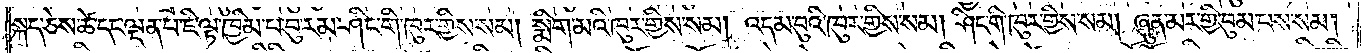སྐད་ཅེས་ཚེ་དང་ལྡན་པ་ཇི་ལྟ་ཁྱིམ་པ་བུ་རམ་ཤིང་གི་ཁུར་གྱིས་སམ། སྨིག་མའི་ཁུར་གྱིས་སམ། འདམ་བུའི་ཁུར་གྱིས་སམ། ཤིང་གི་ཁུར་གྱིས་སམ། ཞུན་མར་གྱི་བུམ་པས་སམ།
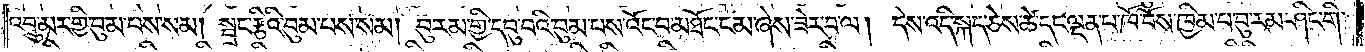འབྲུ་མར་གྱི་བུམ་པས་སམ། སྦྲང་རྩིའི་བམ་པས་སམ། བུ་རམ་གྱི་དབུ་བའི་བུམ་པས་འོང་བ་མཐོང་ངམ་ཞེས་ཟེར་བ་ལ། དེས་འདི་སྐད་ཅེས་ཚེ་དང་ལྡན་པ་ཁོ་བོས་ཁྱིམ་པ་བུ་རམ་ཤིང་གི་
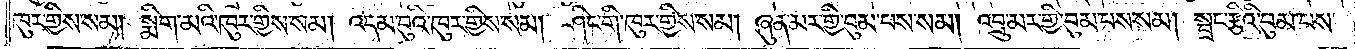ཁུར་གྱིས་སམ། སྨིག་མའི་ཁུར་གྱིས་སམ། འདམ་བུའི་ཁུར་གྱིས་སམ། ཤིང་གི་ཁུར་གྱིས་སམ། ཞུན་མར་གྱི་བུམ་པས་སམ། འབྲུ་མར་གྱི་བུམ་པས་སམ། སྦྲང་རྩིའི་བུམ་པས་
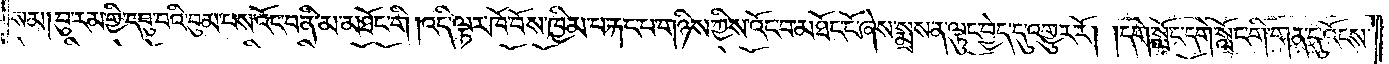སམ། བུ་རམ་གྱི་དབུ་བའི་བུམ་པས་འོང་བ་ནི་མ་མཐོང་གི །འདི་ལྟར་ཁོ་བོས་ཁྱིམ་པ་རྐང་པ་གཉིས་ཀྱིས་འོང་བ་མཐོང་ངོ་ཞེས་སྨྲས་ན་ལྟུང་བྱེད་དུ་འགྱུར་རོ། །དགེ་སློང་དགེ་སློང་གི་གན་དུ་འོངས་
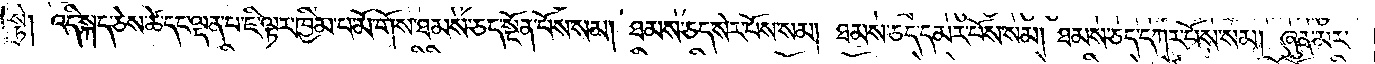སྟེ། འདི་སྐད་ཅེས་ཚེ་དང་ལྡན་པ་ཇི་ལྟར་ཁྱིམ་པ་མོ་གོས་ཐམས་ཅད་སྔོན་པོས་སམ། ཐམས་ཅད་སེར་པོས་སམ། ཐམས་ཅད་དམར་པོས་སམ། ཐམས་ཅད་དཀར་པོས་སམ། ཞུན་མར་
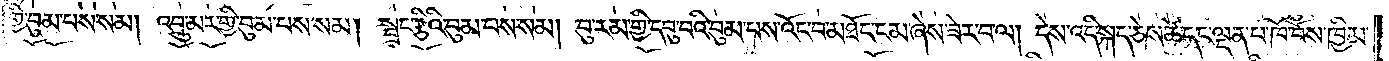གྱི་བུམ་པས་སམ། འབྲུ་མར་གྱི་བུམ་པས་སམ། སྦྲང་རྩིའི་བུམ་པས་སམ། བུ་རམ་གྱི་དབུ་བའི་བུམ་པས་འོང་བ་མཐོང་ངམ་ཞེས་ཟེར་བ་ལ། དེས་འདི་སྐད་ཅེས་ཚེ་དང་ལྡན་པ་ཁོ་བོས་ཁྱིམ་
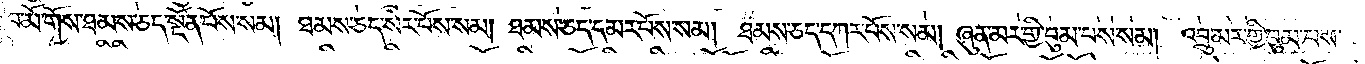པ་མོ་གོས་ཐམས་ཅད་སྔོན་པོས་སམ། ཐམས་ཅད་སེར་པོས་སམ། ཐམས་ཅད་དམར་པོས་སམ། ཐམས་ཅད་དཀར་པོས་སམ། ཞུན་མར་གྱི་བུམ་པས་སམ། འབྲུ་མར་གྱི་བུམ་པས་
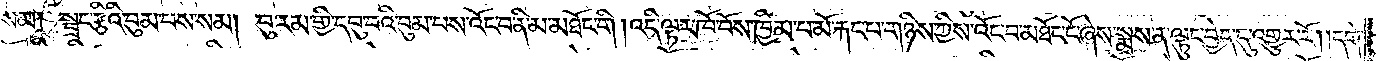སམ། སྦྲང་རྩིའི་བུམ་པས་སམ། བུ་རམ་གྱི་དབུ་བའི་བུམ་པས་འོང་བ་ནི་མ་མཐོང་གི །འདི་ལྟར་ཁོ་བོས་ཁྱིམ་པ་མོ་རྐང་པ་གཉིས་ཀྱིས་འོང་བ་མཐོང་ངོ་ཞེས་སྨྲས་ན་ལྟུང་བྱེད་དུ་འགྱུར་རོ། །དགེ་
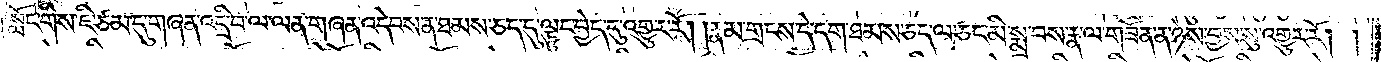སློང་གིས་ཇི་ཙམ་དུ་གཞན་འདྲི་བ་ལ་ལན་གཞན་འདེབས་ན་ཐམས་ཅད་དུ་ལྟུང་བྱེད་དུ་འགྱུར་རོ། །རྣམ་གྲངས་དེ་དག་ཐམས་ཅད་ལ་ཅང་མི་སྨྲ་བས་རྣ་ལ་གཟོན་ན་ཉེས་བྱས་སུ་འགྱུར་རོ། །
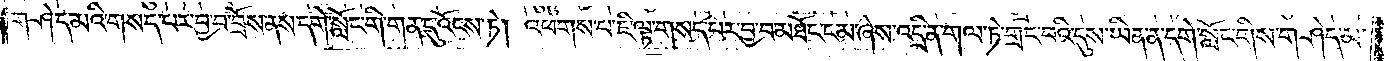གཤེད་མའི་གསད་པར་བྱ་བ་བྲོས་ནས་དགེ་སློང་གི་གན་དུ་འོངས་ཏེ། འཕགས་པ་ཇི་ལྟ་གསད་པར་བྱ་བ་མཐོང་ངམ་ཞེས་འདྲི་ན་གལ་ཏེ་གྲང་བའི་དུས་ཡིན་ན་དགེ་སློང་གིས་གཤེད་མ་
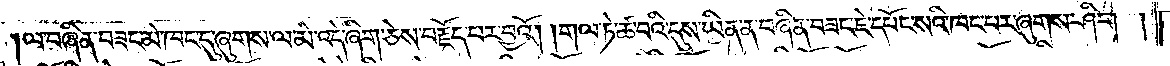ལ་བཞིན་བཟང་མེ་ཁང་དུ་ཞུགས་ལ་མེ་འདི་ཞིག་ཅེས་བརྗོད་པར་བྱའོ། །གལ་ཏེ་ཚ་བའི་དུས་ཡིན་ན་བཞིན་བཟང་ཇེ་དཔོང་སའི་ཁང་པར་ཞུགས་ཤིག །
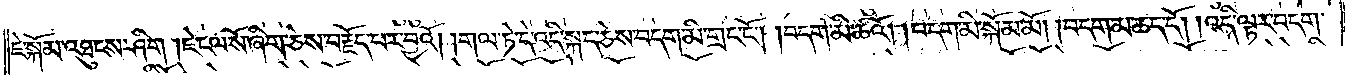ཇེ་སྐོམ་འཐུངས་ཤིག །ཇེ་ངལ་སོ་ཞིག་ཅེས་བརྗོད་པར་བྱའོ། །གལ་ཏེ་དེ་འདི་སྐད་ཅེས་བདག་མི་གྲང་ངོ༌། །བདག་མི་ཚའོ་། །བདག་མི་སྐོམ་མོ། །བདག་མ་ཆད་དོ། །འདི་ལྟར་བདག་
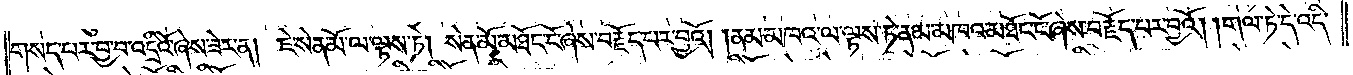གསད་པར་བྱ་བ་འདྲིའོ་ཞེས་ཟེར་ན། ཇེ་སེན་མོ་ལ་ལྟས་ཏེ། སེན་མོ་མཐོང་ངོ་ཞེས་བརྗོད་པར་བྱའོ། །ནམ་མཁའ་ལ་ལྟས་ཏེ་ནམ་མཁའ་མཐོང་ངོ་ཞེས་བརྗོད་པར་བྱའོ། །གལ་ཏེ་དེ་འདི་
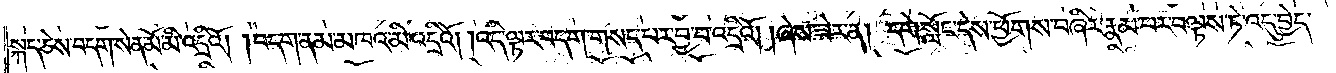སྐད་ཅེས་བདག་སེན་མོ་མི་འདྲིའོ། །བདག་ནམ་མཁའ་མི་འདྲིའོ། །འདི་ལྟར་བདག་གསད་པར་བྱ་བ་འདྲིའོ། །ཞེས་ཟེར་ན། དགེ་སློང་དེས་ཕྱོགས་བཞིར་རྣམ་པར་བལྟས་ཏེ་འདུ་བྱེད་
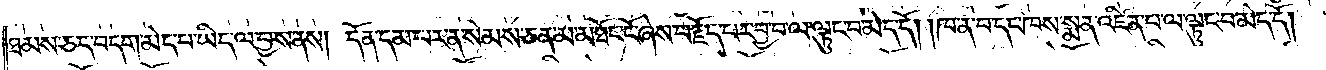ཐམས་ཅད་བདག་མེད་པ་ཡིད་ལ་བྱས་ནས། དོན་དམ་པར་ན་སེམས་ཅན་མ་མཐོང་ངོ་ཞེས་བརྗོད་པར་བྱ་བ་ལ་ལྟུང་བ་མེད་དོ། །ཁ་ན་བ་དང་ཁས་སྨན་འཛིན་པ་ལ་ལྟུང་བ་མེད་དོ། །
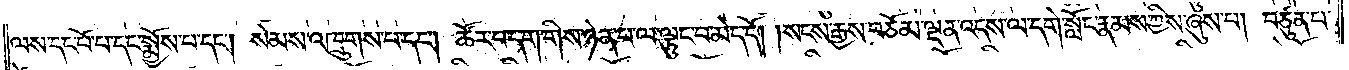ལས་དང་པོ་པ་དང་སྨྱོས་པ་དང༌། སེམས་འཁྲུགས་པ་དང༌། ཚོར་བ་དག་གིས་ཉེན་པ་ལ་ལྟུང་བ་མེད་དོ། །སངས་རྒྱས་བཅོམ་ལྡན་འདས་ལ་དགེ་སློང་རྣམས་ཀྱིས་ཞུས་པ། བཙུན་པ་
